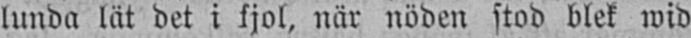lunda lät det i fjol, när nöden stod blek wid
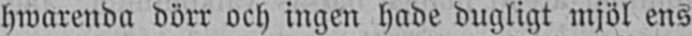hwarenda dörr och ingen hade dugligt mjöl ens
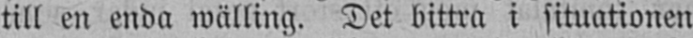till en enda wälling. Det bittra i situationen
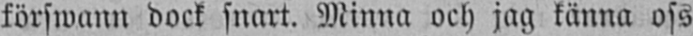förswann dock snart. Minna och jag känna oss
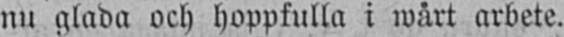nu glada och hoppfulla i wårt arbete.
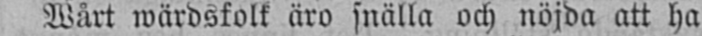Wårt wärdsfolk äro snälla och nöjda att ha
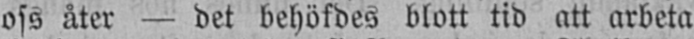oss åter — det behöfdes blott tid att arbeta
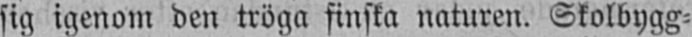sig igenom den tröga finska naturen. Skolbygg-
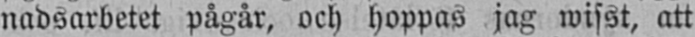nadsarbetet pågår, och hoppas jag wisst, att
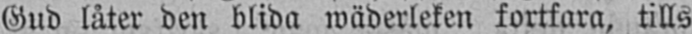Gud låter den blida wäderleken fortfara, tills
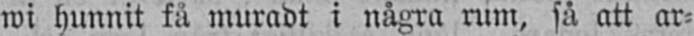wi hunnit få muradt i några rum, så att ar-
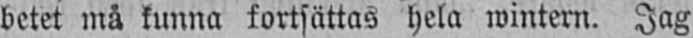betet må kunna fortsättas hela wintern. Jag
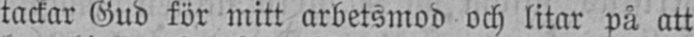tackar Gud för mitt arbetsmod och litar på att
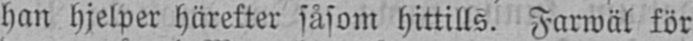han hjelper härefter såsom hittills. Farwäl för
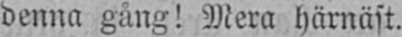denna gång! Mera härnäst.
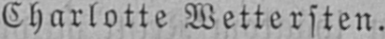Charlotte Wettersten.
